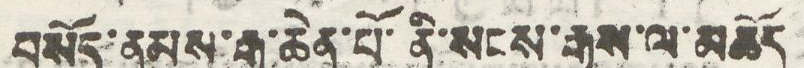བསོད་ནམས་རྒྱ་ཆེན་པོ་ནི་སངས་རྒྱས་ལ་མཆོད
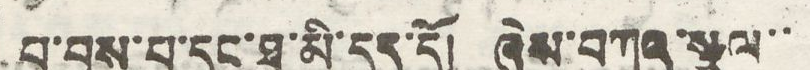པ་བྱས་པ་དང་ཐ་མི་དད་དོ། ཞེས་བཀའ་སྩལ་་
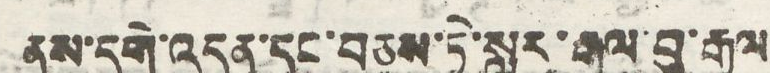ནས་དགེ་འདུན་དང་བཅས་ཏེ་སླར་རྒྱལ་བུ་རྒྱལ
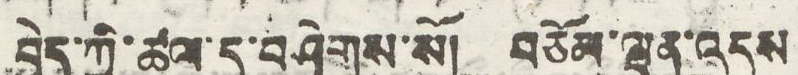བྱེད་ཀྱི་ཚལ་དུ་བཤེགས་སོ། བཅོམ་ལྡན་འདས
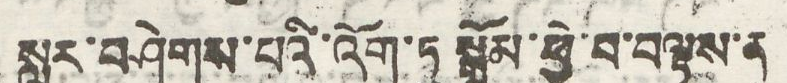སླར་བཤེགས་པའི་འོག་ཏུ སྒྲོན་ཕྱེ་བ་བལྟས་ན
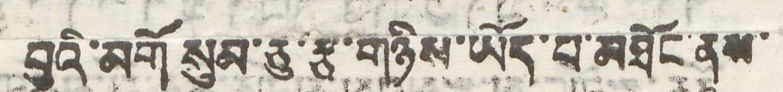བྱའི་མགོ སུམ་ཅུ་རྩ་གཉིས་ཡོད་པ་མཐོང་ནས་
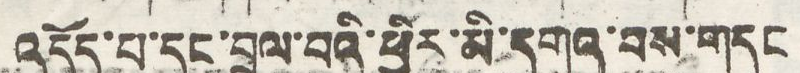འདོད་པ་དང་བྲལ་པའི་ཕྱིར་མི་དགའ་བས་གདུང
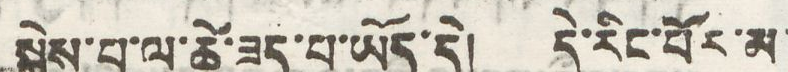སྐྱེས་པ་ལ་ཚེ་ཟད་པ་ཡོད་དེ། དེ་རིང་པོར་མ་
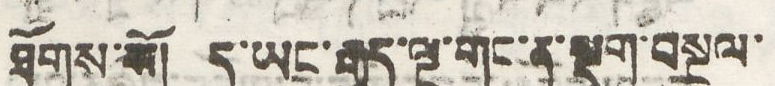ཐོགས་སོ། ད་ཡང་རྒྱུད་ལྔ་གང་ན་སྡུག་བསྔལ་
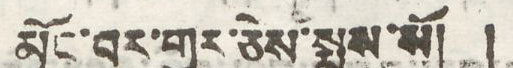མྱོང་བར་གྱུར་ཅེས་སྨྲས་སོ། །
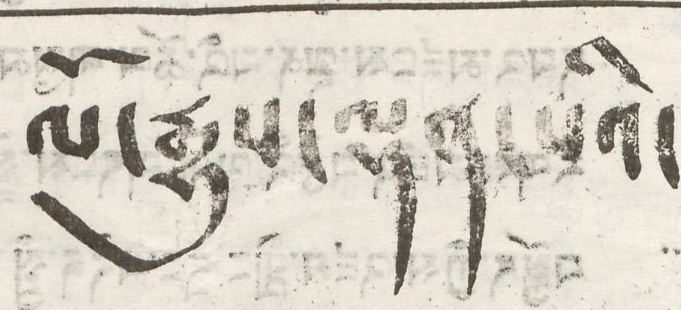ལོ་རྒྱུས་ལྡན་པའི་
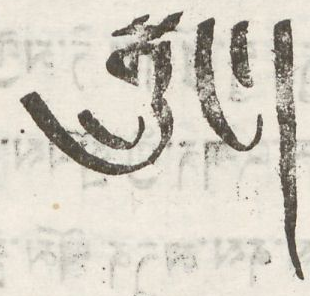སྒྲུང་།
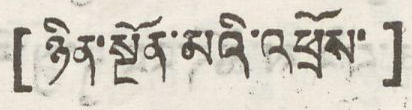[ ཉིན་སྔོན་མའི་འཕྲོས་ ]
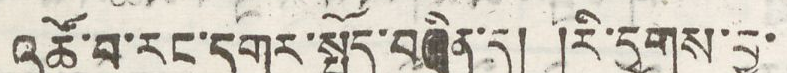འཚོ་བ་རང་དགར་སྤྱོད་བཞིན་དུ། །རི་དྭགས་བྱ་
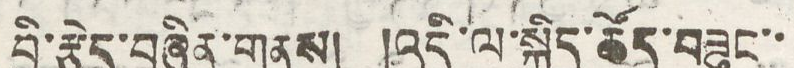བྱི་རྩེད་བཞིན་གནས། །འདི་ལ་སྐྱིད་ཚོད་བཟུང་་
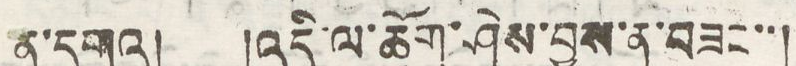ན་དགའ། །འདི་ལ་ཆོག་ཤེས་བྱས་ན་བཟང་་།
